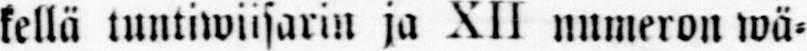kellä tuntiwiisarin ja XII numeron wä-
